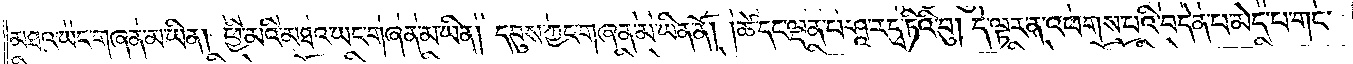མཐའ་ཡང་གཞན་མ་ཡིན། ཕྱི་མའི་མཐའ་ཡང་གཞན་མ་ཡིན། ། དབུས་ཀྱང་གཞན་མ་ཡིན་ནོ། །ཚེ་དང་ལྡན་པ་ཤཱ་རདྭ་ཏིའི་བུ། དེ་ལྟར་ན་འཕགས་པའི་བདེན་པ་མེད་པ་གང་
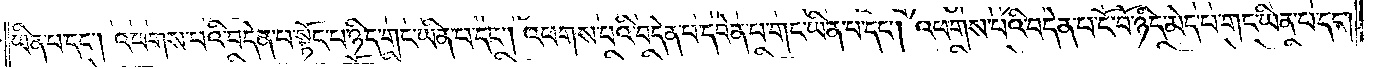ཡིན་པ་དང༌། འཕགས་པའི་བདེན་པ་སྟོང་པ་ཉིད་གང་ཡིན་པ་དང༌། འཕགས་པའི་བདེན་པ་དབེན་པ་གང་ཡིན་པ་དང༌། འཕགས་པའི་བདེན་པ་ངོ་བོ་ཉིད་མེད་པ་གང་ཡིན་པ་དང༌།
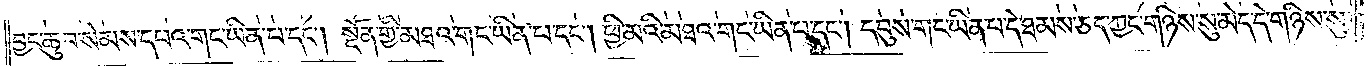བྱང་ཆུབ་སེམས་དཔའ་གང་ཡིན་པ་དང༌། སྔོན་གྱི་མཐའ་གང་ཡིན་པ་དང༌། ཕྱི་མའི་མཐའ་གང་ཡིན་པ་དང༌། དབུས་གང་ཡིན་པ་དེ་ཐམས་ཅད་ཀྱང་གཉིས་སུ་མེད་དེ་གཉིས་སུ་
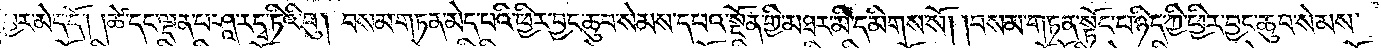བྱར་མེད་དོ། །ཚེ་དང་ལྡན་པ་ཤཱ་རདྭ་ཏིའི་བུ། བསམ་གཏན་མེད་པའི་ཕྱིར་བྱང་ཆུབ་སེམས་དཔའ་སྔོན་གྱི་མཐར་མི་དམིགས་སོ། །བསམ་གཏན་སྟོང་པ་ཉིད་ཀྱི་ཕྱིར་བྱང་ཆུབ་སེམས་
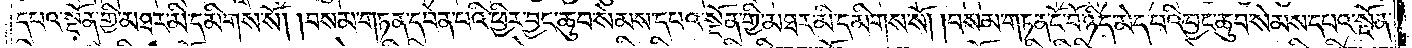དཔའ་སྔོན་གྱི་མཐར་མི་དམིགས་སོ། །བསམ་གཏན་དབེན་པའི་ཕྱིར་བྱང་ཆུབ་སེམས་དཔའ་སྔོན་གྱི་མཐར་མི་དམིགས་སོ། །བསམ་གཏན་ངོ་བོ་ཉིད་མེད་པའི་ཕྱིར་བྱང་ཆུབ་སེམས་དཔའ་སྔོན་
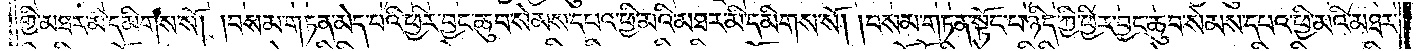གྱི་མཐར་མི་དམིགས་སོ། །བསམ་གཏན་མེད་པའི་ཕྱིར་བྱང་ཆུབ་སེམས་དཔའ་ཕྱི་མའི་མཐར་མི་དམིགས་སོ། །བསམ་གཏན་སྟོང་པ་ཉིད་ཀྱི་ཕྱིར་བྱང་ཆུབ་སེམས་དཔའ་ཕྱི་མའི་མཐར་
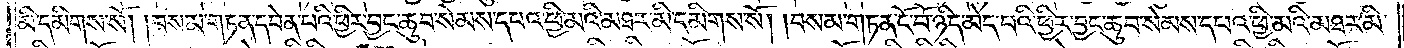མི་དམིགས་སོ། །བསམ་གཏན་དབེན་པའི་ཕྱིར་བྱང་ཆུབ་སེམས་དཔའ་ཕྱི་མའི་མཐར་མི་དམིགས་སོ། །བསམ་གཏན་ངོ་བོ་ཉིད་མེད་པའི་ཕྱིར་བྱང་ཆུབ་སེམས་དཔའ་ཕྱི་མའི་མཐར་མི་
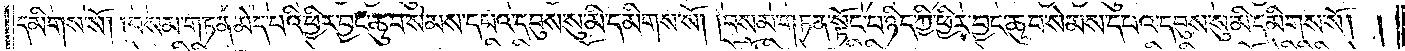དམིགས་སོ། །བསམ་གཏན་མེད་པའི་ཕྱིར་བྱང་ཆུབ་སེམས་དཔའ་དབུས་སུ་མི་དམིགས་སོ། །བསམ་གཏན་སྟོང་པ་ཉིད་ཀྱི་ཕྱིར་བྱང་ཆུབ་སེམས་དཔའ་དབུས་སུ་མི་དམིགས་སོ། །
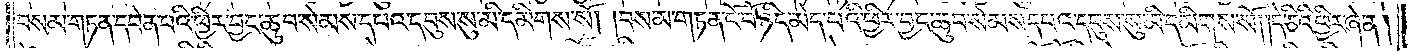བསམ་གཏན་དབེན་པའི་ཕྱིར་བྱང་ཆུབ་སེམས་དཔའ་དབུས་སུ་མི་དམིགས་སོ། །བསམ་གཏན་ངོ་བོ་ཉིད་མེད་པའི་ཕྱིར་བྱང་ཆུབ་སེམས་དཔའ་དབུས་སུ་མི་དམིགས་སོ། །དེ་ཅིའི་ཕྱིར་ཞེ་ན།
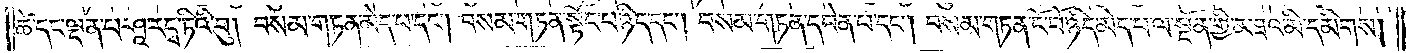ཚེ་དང་ལྡན་པ་ཤཱ་རདྭ་ཏིའི་བུ། བསམ་གཏན་མེད་པ་དང༌། བསམ་གཏན་སྟོང་པ་ཉིད་དང༌། བསམ་གཏན་དབེན་པ་དང༌། བསམ་གཏན་ངོ་བོ་ཉིད་མེད་པ་ལ་སྔོན་གྱི་མཐའ་མི་དམིགས།
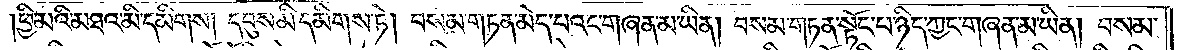ཕྱི་མའི་མཐའ་མི་དམིགས། དབུས་མི་དམིགས་ཏེ། བསམ་གཏན་མེད་པའང་གཞན་མ་ཡིན། བསམ་གཏན་སྟོང་པ་ཉིད་ཀྱང་གཞན་མ་ཡིན། བསམ་
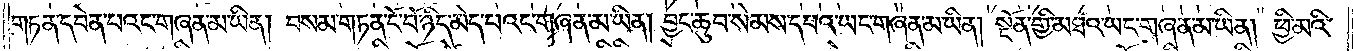གཏན་དབེན་པའང་གཞན་མ་ཡིན། བསམ་གཏན་ངོ་བོ་ཉིད་མེད་པའང་གཞན་མ་ཡིན། བྱང་ཆུབ་སེམས་དཔའ་ཡང་གཞན་མ་ཡིན། སྔོན་གྱི་མཐའ་ཡང་གཞན་མ་ཡིན། ཕྱི་མའི་
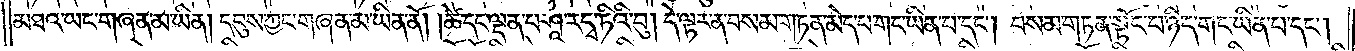མཐའ་ཡང་གཞན་མ་ཡིན། དབུས་ཀྱང་གཞན་མ་ཡིན་ནོ། །ཚེ་དང་ལྡན་པ་ཤཱ་རདྭ་ཏིའི་བུ། དེ་ལྟར་ན་བསམ་གཏན་མེད་པ་གང་ཡིན་པ་དང༌། བསམ་གཏན་སྟོང་པ་ཉིད་གང་ཡིན་པ་དང༌།
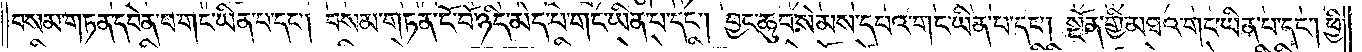བསམ་གཏན་དབེན་པ་གང་ཡིན་པ་དང༌། བསམ་གཏན་ངོ་བོ་ཉིད་མེད་པ་གང་ཡིན་པ་དང༌། བྱང་ཆུབ་སེམས་དཔའ་གང་ཡིན་པ་དང༌། སྔོན་གྱི་མཐའ་གང་ཡིན་པ་དང༌། ཕྱི་
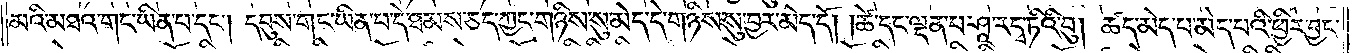མའི་མཐའ་གང་ཡིན་པ་དང༌། དབུས་གང་ཡིན་པ་དེ་ཐམས་ཅད་ཀྱང་གཉིས་སུ་མེད་དེ་གཉིས་སུ་བྱར་མེད་དོ། །ཚེ་དང་ལྡན་པ་ཤཱ་རདྭ་ཏིའི་བུ། ཚད་མེད་པ་མེད་པའི་ཕྱིར་བྱང་
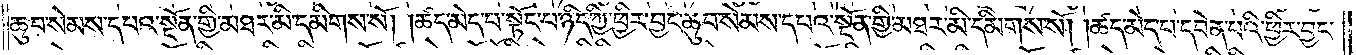ཆུབ་སེམས་དཔའ་སྔོན་གྱི་མཐར་མི་དམིགས་སོ། །ཚད་མེད་པ་སྟོང་པ་ཉིད་ཀྱི་ཕྱིར་བྱང་ཆུབ་སེམས་དཔའ་སྔོན་གྱི་མཐར་མི་དམིགས་སོ། །ཚད་མེད་པ་དབེན་པའི་ཕྱིར་བྱང་
